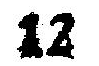12
